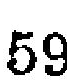59
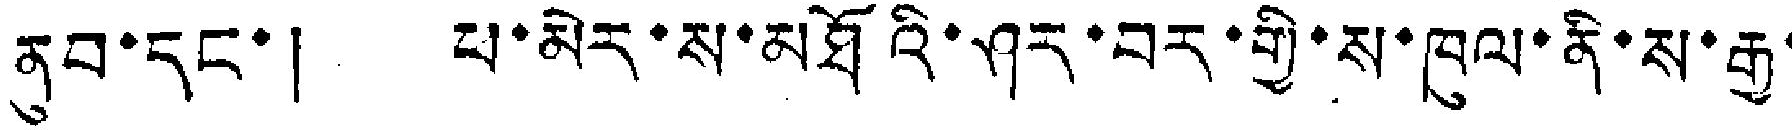ནུབ་དང་། ཕ་མེར་ས་མཐོའི་ཤར་བར་གྱི་ས་ཁུལ་ནི་ས་རྒྱ་
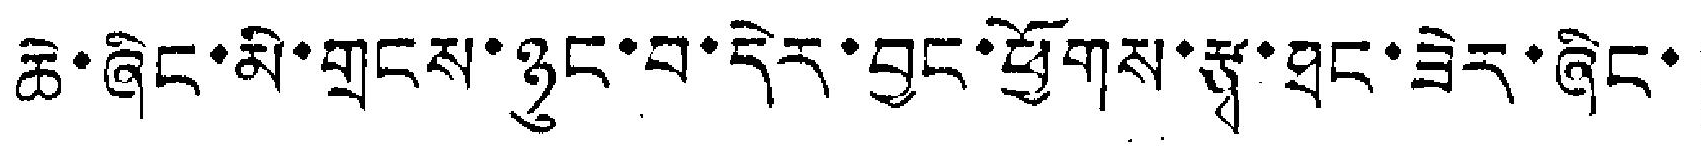ཆེ་ཞིང་མི་གྲངས་ཉུང་བ་དེར་བྱང་ཕྱོགས་རྩྭ་ཐང་ཟེར་ཞིང་།
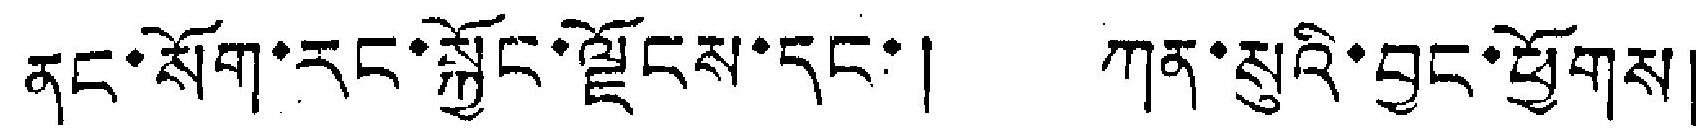ནང་སོག་རང་སྐྱོང་ལྗོངས་དང་། ཀན་སུའི་བྱང་ཕྱོགས།
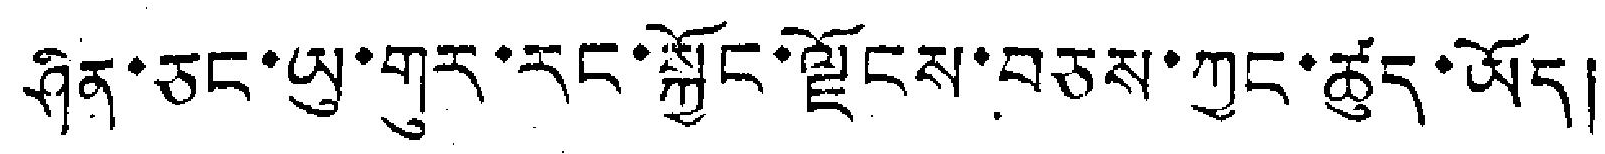ཤིན་ཅང་ཡུ་གུར་རང་སྐྱོང་ལྗོངས་བཅས་ཀྱང་ཚུད་ཡོད།
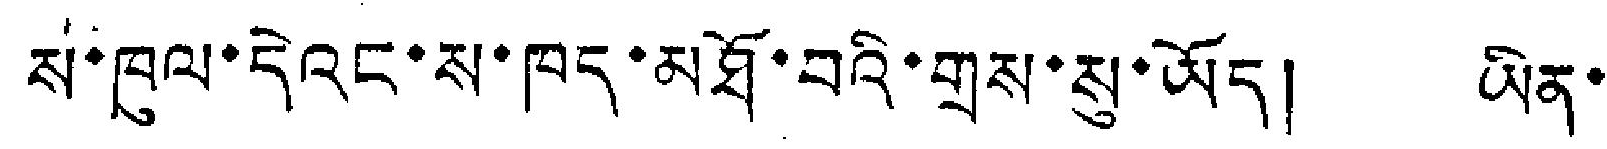ས་ཁུལ་དེའང་ས་ཁད་མཐོ་བའི་གྲས་སུ་ཡོད། ཡིན་
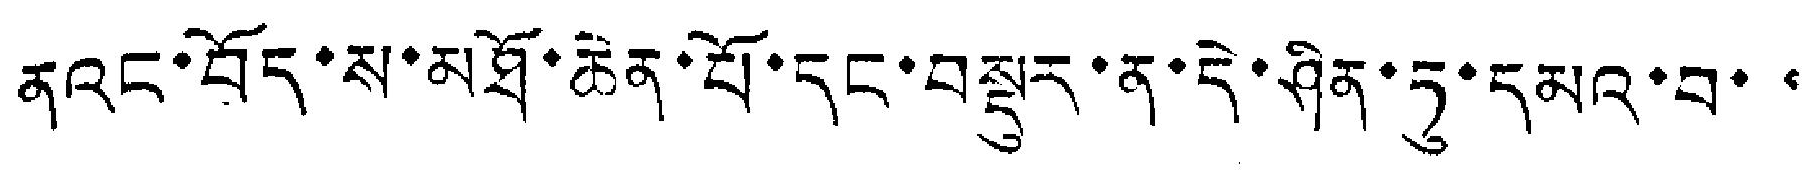ནའང་བོད་ས་མཐོ་ཆེན་པོ་དང་བསྡུར་ན་དེ་ཤིན་ཏུ་དམའ་བ་་
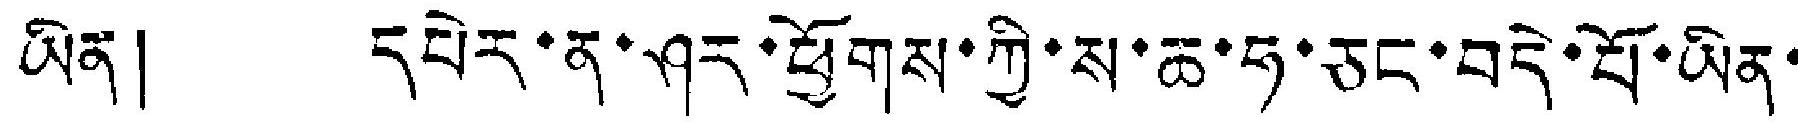ཡིན། དཔེར་ན་ཤར་ཕྱོགས་ཀྱི་ས་ཆ་ཧ་ཅང་བདེ་པོ་ཡིན་
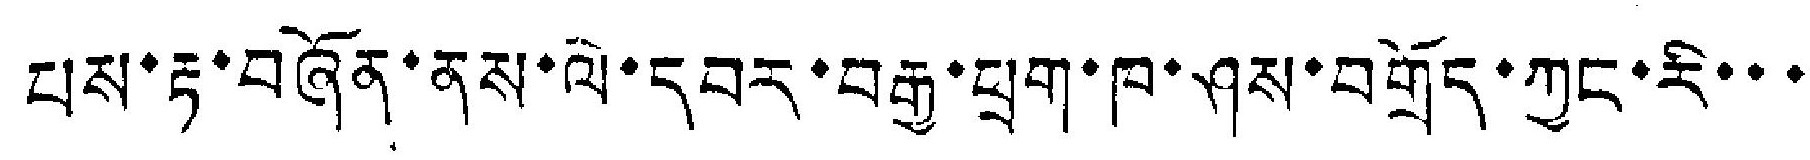པས་རྟ་བཞོན་ནས་ལེ་དབར་བརྒྱ་ཕྲག་ཁ་ཤས་བགྲོད་ཀྱང་རི་་་
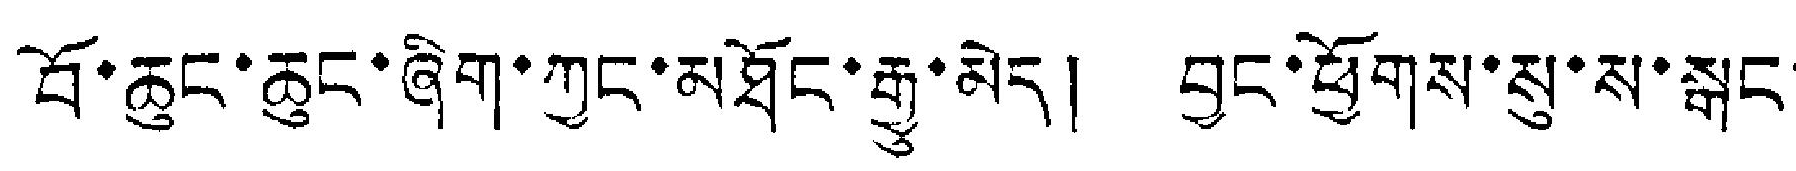བོ་ཆུང་ཆུང་ཞིག་ཀྱང་མཐོང་རྒྱུ་མེད། བྱང་ཕྱོགས་སུ་ས་སྒང་
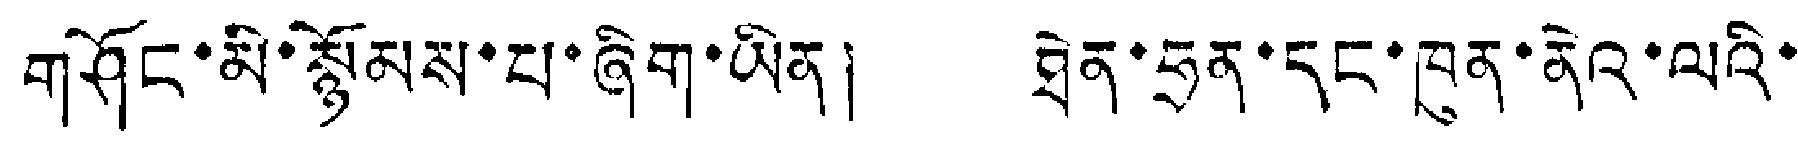གཤོང་མི་སྙོམས་པ་ཞིག་ཡིན། ཐེན་ཧྲན་དང་ཁུན་ནེའ་ལའི་
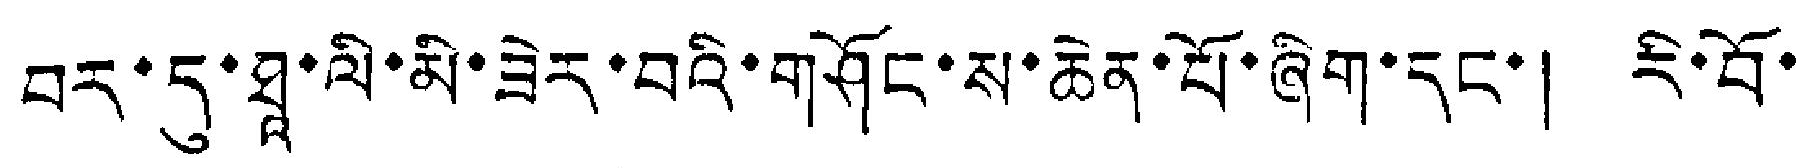བར་དུ་ཐཱ་ལི་མི་ཟེར་བའི་གཤོང་ས་ཆེན་པོ་ཞིག་དང་། རི་བོ་
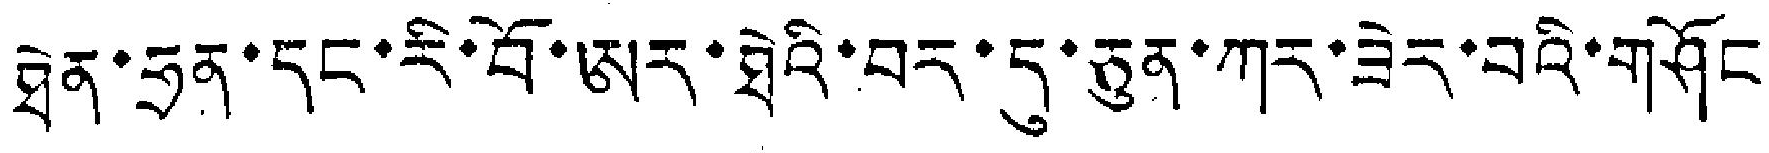ཐེན་ཧྲན་དང་རི་བོ་ཨར་ཐེའི་བར་དུ་ཅུན་ཀར་ཟེར་བའི་གཤོང་
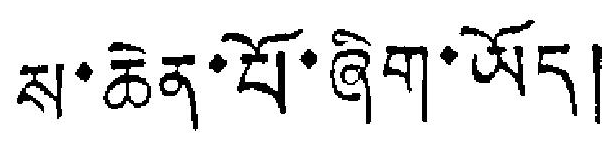ས་ཆེན་པོ་ཞིག་ཡོད།
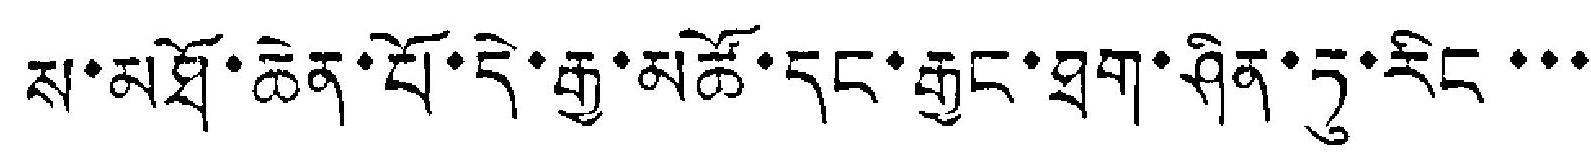ས་མཐོ་ཆེན་པོ་དེ་རྒྱ་མཚོ་དང་རྒྱང་ཐག་ཤིན་ཏུ་རིང་་་
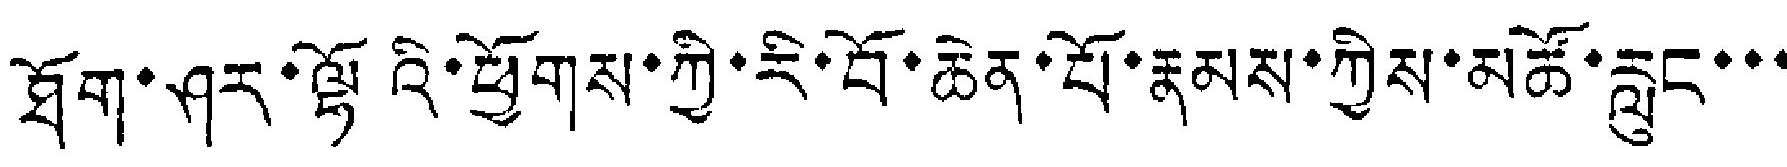ཐོག་ཤར་ལྷོའི་ཕྱོགས་ཀྱི་རི་བོ་ཆེན་པོ་རྣམས་ཀྱིས་མཚོ་རླུང་་་
